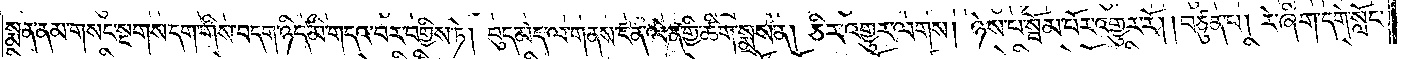སྨན་ནམ་གསང་སྔགས་དག་གིས་བདག་ཉིད་མི་གདའ་བར་བགྱིས་ཏེ། བུད་མེད་ལ་གནས་ངན་ལེན་གྱི་ཚིག་སྨྲས་ན། ཅིར་འགྱུར་ལགས། ཉེས་པ་སྦོམ་པོར་འགྱུར་རོ། །བཙུན་པ། རེ་ཞིག་དགེ་སློང་
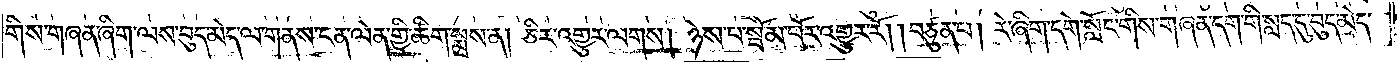གིས་གཞན་ཞིག་ལས་བུད་མེད་ལ་གནས་ངན་ལེན་གྱི་ཚིག་སྨྲས་ན། ཅིར་འགྱུར་ལགས། ཉེས་པ་སྦོམ་པོར་འགྱུར་རོ། །བཙུན་པ། རེ་ཞིག་དགེ་སློང་གིས་གཞན་དག་གི་སླད་དུ་བུད་མེད་
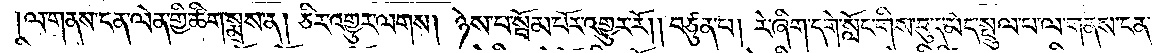།ལ་གནས་ངན་ལེན་གྱི་ཚིག་སྨྲས་ན། ཅིར་འགྱུར་ལགས། ཉེས་པ་སྦོམ་པོར་འགྱུར་རོ། །བཙུན་པ། རེ་ཞིག་དགེ་སློང་གིས་བུད་མེད་སྤྲུལ་པ་ལ་གནས་ངན་
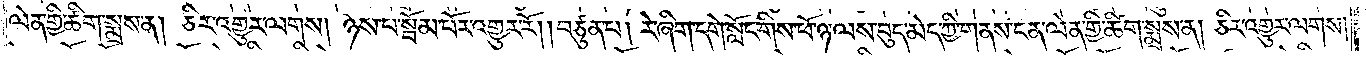ལེན་གྱི་ཚིག་སྨྲས་ན། ཅིར་འགྱུར་ལགས། ཉེས་པ་སྦོམ་པོར་འགྱུར་རོ། །བཙུན་པ། རེ་ཞིག་དགེ་སློང་གིས་ཕོ་ཉ་ལས་བུད་མེད་ཀྱི་གནས་ངན་ལེན་གྱི་ཚིག་སྨྲས་ན། ཅིར་འགྱུར་ལགས།
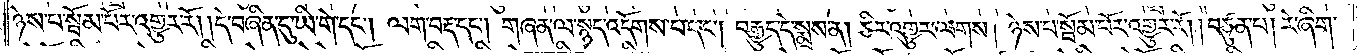ཉེས་པ་སྦོམ་པོར་འགྱུར་རོ། །དེ་བཞིན་དུ་ཡི་གེ་དང༌། ལག་བརྡ་དང༌། གཞན་ལ་སྙད་འདོགས་པ་དང༌། བརྒྱུད་དེ་སྨྲས་ན། ཅིར་འགྱུར་ལགས། ཉེས་པ་སྦོམ་པོར་འགྱུར་རོ། །བཙུན་པ། རེ་ཞིག་
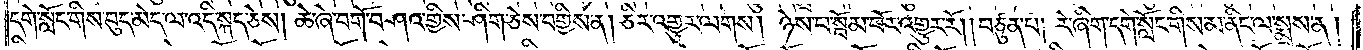དགེ་སློང་གིས་བུད་མེད་ལ་འདི་སྐད་ཅེས། ཆེ་ཞེ་བགོ་བཤའ་གྱིས་ཤིག་ཅེས་བགྱིས་ན། ཅིར་འགྱུར་ལགས། ཉེས་པ་སྦོམ་པོར་འགྱུར་རོ། །བཙུན་པ། རེ་ཞིག་དགེ་སློང་གིས་མ་ནིང་ལ་སྨྲས་ན།
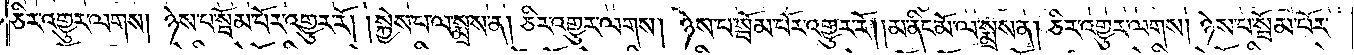ཅིར་འགྱུར་ལགས། ཉེས་པ་སྦོམ་པོར་འགྱུར་རོ། །སྐྱེས་པ་ལ་སྨྲས་ན། ཅིར་འགྱུར་ལགས། ཉེས་པ་སྦོམ་པོར་འགྱུར་རོ། །མ་ནིང་མོ་ལ་སྨྲས་ན། ཅིར་འགྱུར་ལགས། ཉེས་པ་སྦོམ་པོར་
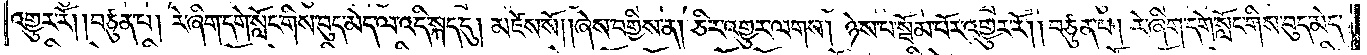འགྱུར་རོ། །བཙུན་པ། རེ་ཞིག་དགེ་སློང་གིས་བུད་མེད་ལ་འདི་སྐད་དུ། མཛེས་སོ། །ཞེས་བགྱིས་ན། ཅིར་འགྱུར་ལགས། ཉེས་པ་སྦོམ་པོར་འགྱུར་རོ། །བཙུན་པ། རེ་ཞིག་དགེ་སློང་གིས་བུད་མེད་
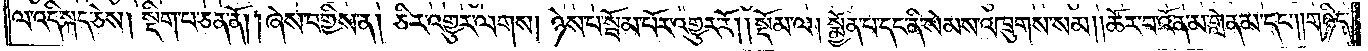ལ་འདི་སྐད་ཅེས། སྡིག་པ་ཅན་ནོ། །ཞེས་བགྱིས་ན། ཅིར་འགྱུར་ལགས། ཉེས་པ་སྦོམ་པོར་འགྱུར་རོ། །སྡོམ་ལ། སྨྱོན་པ་དང་ནི་སེམས་འཁྲུགས་སམ། །ཆོར་བ་འོན་མ་གླེན་མ་དང༌། །གཉིད་
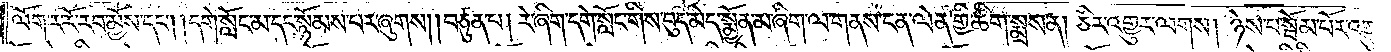ལོག་ར་རོ་རབ་མྱོས་དང༌། །དགེ་སློང་མ་དང་སྙོམས་པར་ཞུགས། །བཙུན་པ། རེ་ཞིག་དགེ་སློང་གིས་བུད་མེད་སྨྱོན་མ་ཞིག་ལ་གནས་ངན་ལེན་གྱི་ཚིག་སྨྲས་ན། ཅིར་འགྱུར་ལགས། ཉེས་པ་སྦོམ་པོར་འགྱུར་
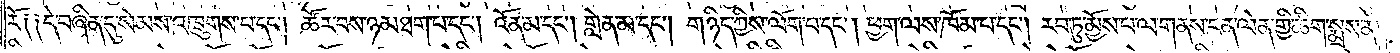རོ༑ ༑དེ་བཞིན་དུ་སེམས་འཁྲུགས་པ་དང༌། ཚོར་བས་ཉམ་ཐག་པ་དང༌། འོན་མ་དང༌། གླེན་མ་དང༌། གཉིད་ཀྱིས་ལོག་པ་དང༌། ཕྱག་ལས་ཁོམ་པ་དང༌། རབ་ཏུ་མྱོས་པ་ལ་གནས་ངན་ལེན་གྱི་ཆིག་སྨྲས་ན།
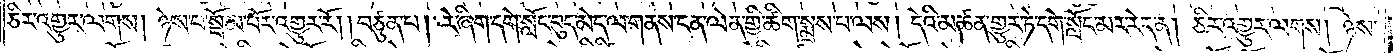ཅིར་འགྱུར་ལགས། ཉེས་པ་སྦོམ་པོར་འགྱུར་རོ། །བཙུན་པ། རེ་ཞིག་དགེ་སློང་བུད་མེད་ལ་གནས་ངན་ལེན་གྱི་ཚིག་སྨྲས་པ་ལས། དེའི་མཚན་གྱུར་ཏེ་དགེ་སློང་མར་རེད་ན། ཅིར་འགྱུར་ལགས། ཉེས་
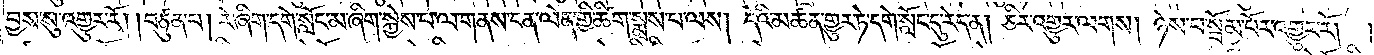བྱས་སུ་འགྱུར་རོ། །བཙུན་པ། རེ་ཞིག་དགེ་སློང་མ་ཞིག་སྐྱེས་པ་ལ་གནས་ངན་ལེན་གྱི་ཚིག་སྨྲས་པ་ལགས། དེའི་མཚན་གྱུར་ཏེ་དགེ་སློང་དུ་རེད་ན། ཅིར་འགྱུར་ལགས། ཉེས་པ་སྦོམ་པོར་འགྱུར་རོ། །
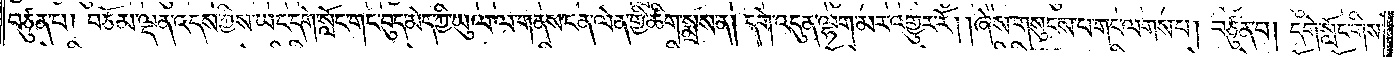བཙུན་པ། བཅོམ་ལྡན་འདས་ཀྱིས་ཡང་དགེ་སློང་གང་བུད་མེད་ཀྱི་ཡུལ་ལ་གནས་ངན་ལེན་གྱི་ཆིག་སྨྲས་ན། དགེ་འདུན་ལྷག་མར་འགྱུར་རོ། །ཞེས་གསུངས་པ་གང་ལགས་པ། བཙུན་པ། དགེ་སློང་གིས་
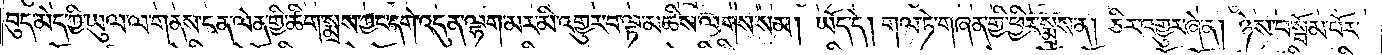བུད་མེད་ཀྱི་ཡུལ་ལ་གནས་ངན་ལེན་གྱི་ཚིག་སྨྲས་ཀྱང་དགེ་འདུན་ལྷག་མར་མི་འགྱུར་བ་ལྟ་མཆིས་ལགས་སམ། ཡོད་དེ། གལ་ཏེ་གཞན་གྱི་ཕྱིར་སྨྲས་ན། ཅིར་འགྱུར་ཞེ་ན། ཉེས་བ་སྦོམ་པོར་
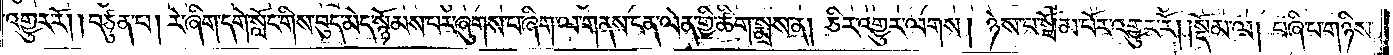འགྱུར་རོ། །བཙུན་པ། རེ་ཞིག་དགེ་སློང་གིས་བུད་མེད་སྙོམས་པར་ཞུགས་པ་ཞིག་ལ་གནས་ངན་ལེན་གྱི་ཚིག་སྨྲས་ན། ཅིར་འགྱུར་ལགས། ཉེས་པ་སྦོམ་པོར་འགྱུར་རོ། །སྡོམ་ལ། བཞི་པ་གཉིས་
